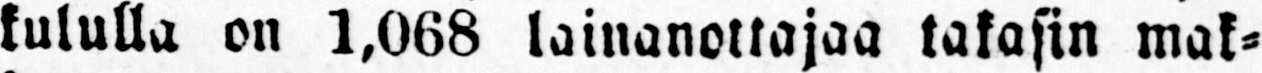kululla on 1,068 lainanottajaa takasin mak-
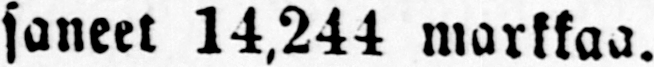saneet 14,244 markkaa.
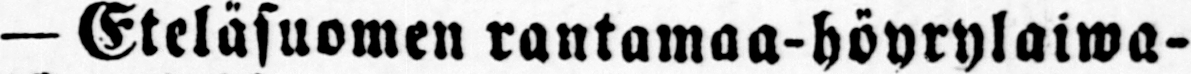— Eteläsuomen rantamaa-höyrylaiwa-
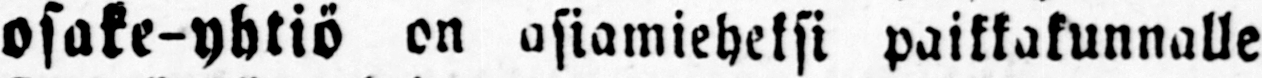osake-yhtiö on asiamieheksi paikkakunnalle
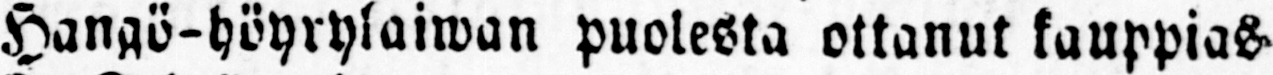Hangö-höyrylaiwan puolesta ottanut kauppias-
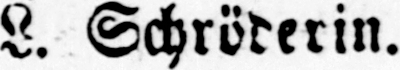L. Schröderin.
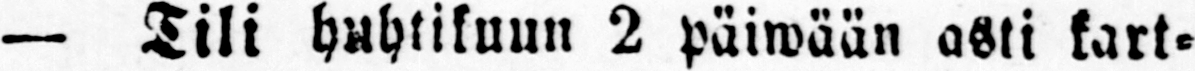— Tili huhtikuun 2 päiwään asti kart-
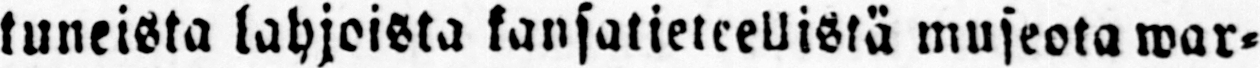tuneista lahjoista kansatieteellistä museota war-
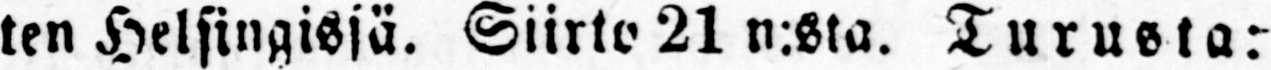ten Helsingissä. Siirto 21 n:sta. Turusta:
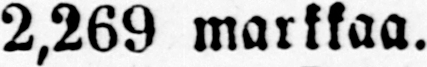2,269 markkaa.
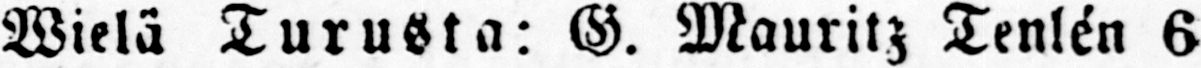Wielä Turusta: G. Mauritz Tenlén 6
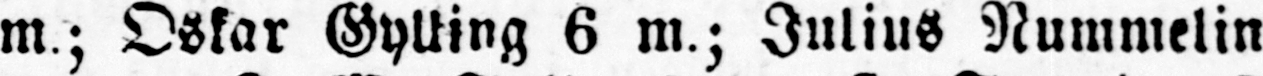m; Oskar Gylling 6 m.; Julius Nummelin
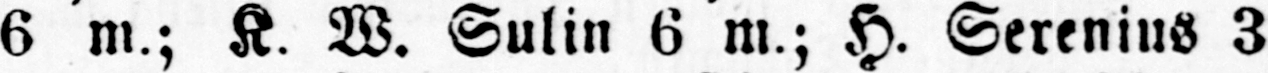6 m.; K. W. Sulin 6 m.; H. Serenius 3
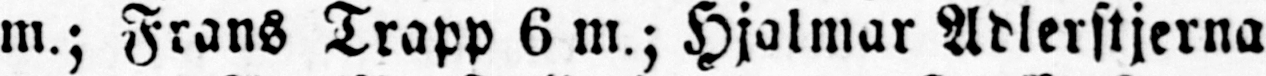m.; Frans Trapp 6 m.; Hjalmar Adlerstjerna
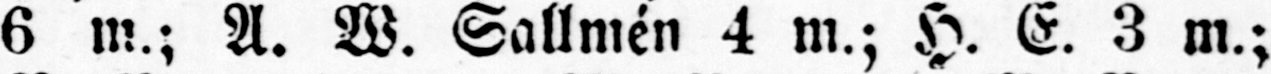6 m.; A. W. Sallmen 4 m.; H. E. 3 m.;
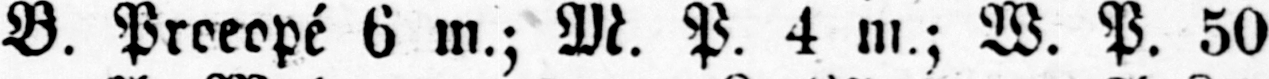B. Proeopé 6 m.; M. P. 4 m.; W. P. 50
